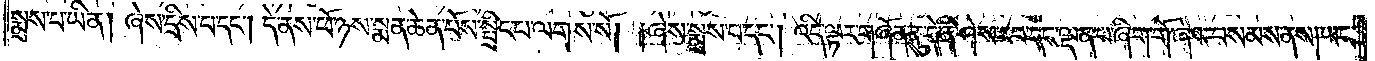སྨྲས་པ་ཡིན། ཞེས་དྲིས་པ་དང༌། དེ་ནས་ཕོ་ཉས་སྨན་ཆེན་པོས་སྤྲིང་པ་ལགས་སོ། །ཞེས་སྨྲས་པ་དང༌། འདི་ལྟར་གཞོན་ནུ་དེ་ནི་ཤེས་རབ་དང་ལྡན་པ་ཞིག་གོ་ཞེས་བསམས་ནས། ཡང་
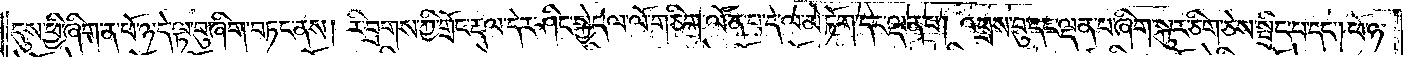དུས་ཕྱི་ཞིག་ན་ཕོ་ཉ་དེ་ལྟ་བུ་ཞིག་བཏང་ནས། རི་བྲགས་ཀྱི་གྲོང་རྡལ་དེར་ཤིང་སྐྱེད་ལ་ལོ་གཅིག་ལོན་པ་དེ་ལ་མེ་ཏོག་དང་ལྡན་པ། འབྲས་བུ་དང་ལྡན་པ་ཞིག་སྐུར་ཅིག་ཅེས་སྤྲིང་པ་དང༌། ཕོ་ཉ་
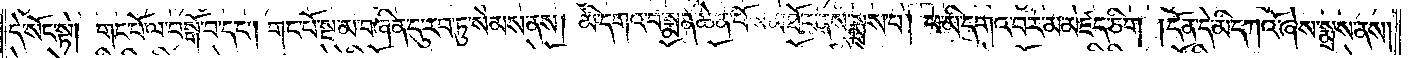དེ་སོང་སྟེ། གང་པོ་ལ་བསྒོ་བ་དང༌། གང་པོ་སྔ་མ་བཞིན་དུ་རབ་ཏུ་སེམས་ནས། མི་དགའ་བ་སྨན་ཆེན་པོས་མཐོང་ནས་སྨྲས་པ། ཕ་མི་དགའ་བར་མ་མཛད་ཅིག །དོན་དེ་མི་དཀའོ་ཞེས་སྨྲས་ནས།
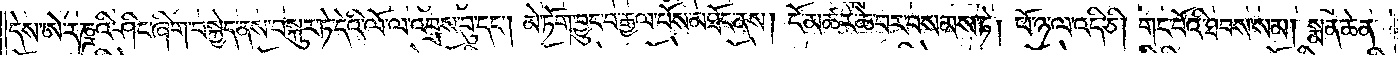དེས་ཨེ་རཎྜའི་ཤིང་ཞིག་བསྐྱེད་ནས་བསྐུར་ཏེ་དེའི་ལོ་ལ་འབྲས་བུ་དང༌། མེ་ཏོག་བྱུང་བ་རྒྱལ་པོས་མཐོང་ནས། ངོ་མཚར་ཆེ་བར་བསམས་ཏེ། ཕོ་ཉ་ལ་འདི་ཅི། གང་པོའི་ཐབས་སམ། སྨན་ཆེན་
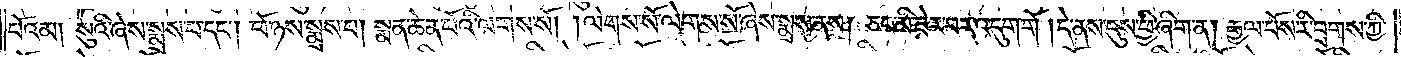པོའམ། སུའི་ཞེས་སྨྲས་པ་དང༌། ཕོ་ཉས་སྨྲས་པ། སྨན་ཆེན་པོའི་ལགས་སོ། །ལེགས་སོ་ལེགས་སོ་ཞེས་སྨྲས་ནས། ཅང་མི་ཟེར་བར་འདུག་གོ །དེ་ནས་དུས་ཕྱི་ཞིག་ན། རྒྱལ་པོས་རི་བྲགས་ཀྱི་
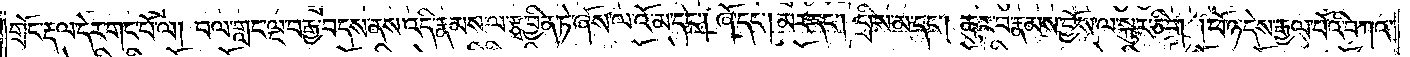གྲོང་རྡལ་དེར་གང་པོ་ལ། བལ་གླང་ལྔ་བརྒྱ་བདས་ནས་འདི་རྣམས་ལ་རྩྭ་བྱིན་ཏེ་ཞོས་ལ་འོ་མ་དང༌། ཞོ་དང༌། མར་དང༌། བྲིས་མ་དང༌། ཆུར་བ་རྣམས་བྱོས་ལ་སྐུར་ཅིག །ཕོ་ཉ་དེས་རྒྱལ་པོའི་བཀའ་
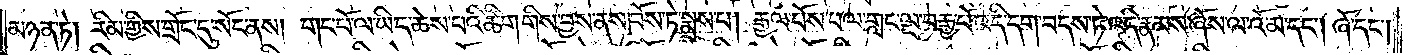མཉན་ཏེ། རིམ་གྱིས་གྲོང་དུ་སོང་ནས། གང་པོ་ལ་ཡིད་ཆེས་པའི་ཚིག་གིས་བྱས་ནས་བོས་ཏེ་སྨྲས་པ། རྒྱལ་པོས་བལ་གླང་ལྔ་བརྒྱ་པོ་འདི་དག་བདས་ཏེ་འདི་རྣམས་ཞོས་ལ་འོ་མ་དང༌། ཞོ་དང༌།
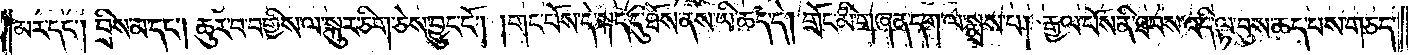མར་དང༌། བྲིས་མ་དང༌། ཆུར་བ་བགྱིས་ལ་སྐུར་ཅིག་ཅེས་བྱུང་ངོ༌། །གང་པོས་དེ་སྐད་དུ་ཐོས་ནས་ཡི་ཆད་དེ། གྲོང་མི་གཞན་དག་ལ་སྨྲས་པ། རྒྱལ་པོས་ནི་ཐབས་འདི་ལྟ་བུས་ཆད་པས་གཅད་
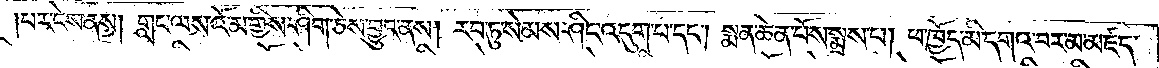པར་ངེས་ནས། གླང་ལས་འོ་མ་གྱིས་ཤིག་ཅེས་བྱུང་ནས། རབ་ཏུ་སེམས་ཤིང་འདུག་པ་དང༌། སྨན་ཆེན་པོས་སྨྲས་པ། ཕ་ཁྱོད་མི་དགའ་བར་མ་མཛད་
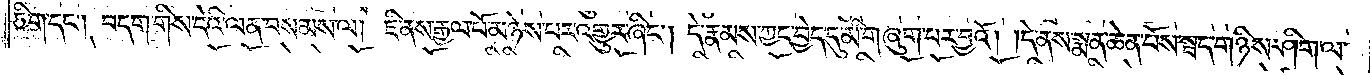ཅིག་དང༌། བདག་གིས་དེའི་ལན་བསམས་ལ། ཇི་ནས་རྒྱལ་པོ་མཉེས་པར་འགྱུར་ཞིང༌། དེ་རྣམས་ཀྱང་བྱེད་དུ་མི་གཞུག་པར་བྱའོ། །དེ་ནས་སྨན་ཆེན་པོས་སྦད་གཉིས་ཤིག་ལ་
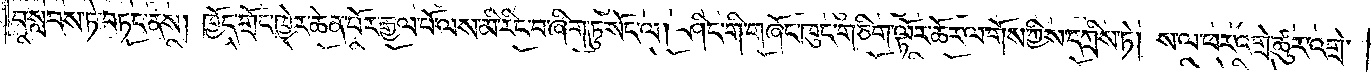བསླབས་ཏེ་བཏང་ནས། ཁྱོད་གྲོང་ཁྱེར་ཆེན་པོར་རྒྱལ་པོ་ལས་མི་རིང་བ་ཞིག་ཏུ་སོང་ལ། ཤིང་གི་གཞོང་ཁུང་གཅིག་ལྟོར་ཆོར་ལ་གོས་ཀྱིས་དཀྲིས་ཏེ། ས་ལ་ཕར་འགྲེ་ཚུར་འགྲེ་
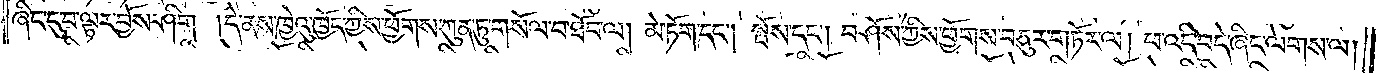ཞིང་དུ་བ་ལྟར་བྱོས་ཤིག །དེ་ནས་ཁྱེའུ་ཁྱོད་ཀྱིས་ཕྱོགས་ཀུན་ཏུ་གསོལ་བ་ཐོབ་ལ། མེ་ཏོག་དང༌། སྤོས་དང༌། བཤོས་ཀྱིས་ཕྱོགས་བཅུར་གཏོར་ལ། ཕ་འདི་བདེ་ཞིང་ལེགས་ལ།
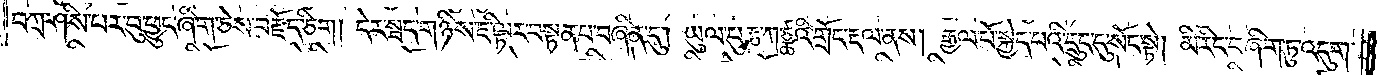བཀྲ་ཤིས་པར་བུ་ཕྱུང་ཞིག་ཅེས་བརྗོད་ཅིག། དེར་སྦད་གཉིས་ཇི་ལྟར་བསྟན་པ་བཞིན་དུ། ཡུལ་པུརྞ་ཀ་ཙྪའི་གྲོང་རྡལ་ནས། རྒྱལ་པོ་སྐྱེད་པའི་དྲུང་དུ་སོང་སྟེ། མི་རིང་བ་ཞིག་ཏུ་འདུག་
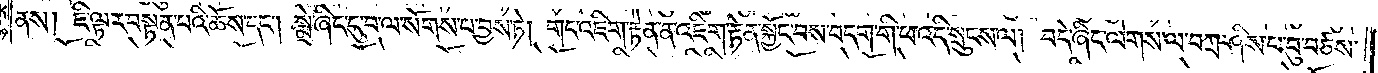ནས། ཇི་ལྟར་བསྟན་པའི་ཆོས་དང༌། སྨྲེ་ཞིང་དུ་བ་ལ་སོགས་པ་བྱས་ཏེ། གང་འཇིག་རྟེན་ན་འཇིག་རྟེན་སྐྱོང་བས་བདག་གི་ཕ་འདི་སྲུངས་ལ། བདེ་ཞིང་ལེགས་ལ་བཀྲ་ཤིས་པ་བུ་བཙས་
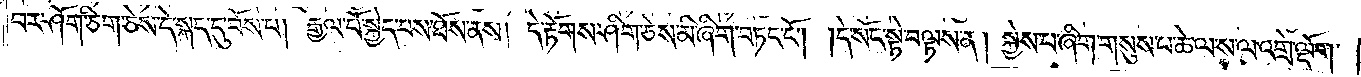བར་ཤོག་ཅིག་ཅེས་དེ་སྐད་དུ་བོས་པ། རྒྱལ་པོ་སྐྱེད་པས་ཐོས་ནས། དེ་རྟོགས་ཤིག་ཅེས་མི་ཞིག་བཏང་ངོ༌། །དེ་སོང་སྟེ་བལྟས་ན། སྐྱེས་པ་ཞིག་གསུས་པ་ཆེ་ལ་ས་ལ་འགྲེ་ལྡོག་
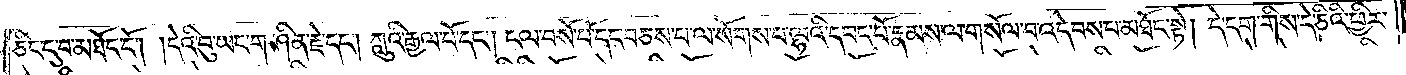ཅིང་དུ་བ་མཐོང་ངོ༌། །དེའི་བུ་ཡང་གཤིན་རྗེ་དང༌། ཀླུའི་རྒྱལ་པོ་དང༌། ངལ་བསོ་པོ་དང་བཅས་པ་ལ་སོགས་པ་ལྷའི་དབང་པོ་རྣམས་ལ་གསོལ་བ་འདེབས་པ་མཐོང་སྟེ། དེ་དག་གིས་དེ་ཅིའི་ཕྱིར་
